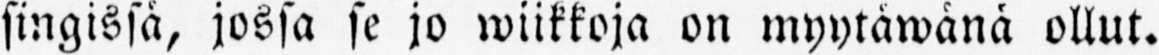singissä, jossa se jo wiikkoja on myytäwänä ollut.
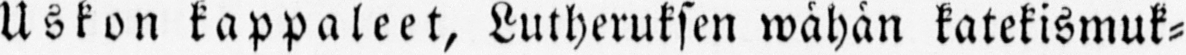Uskon kappaleet, Lutheruksen wähän katekismuk-
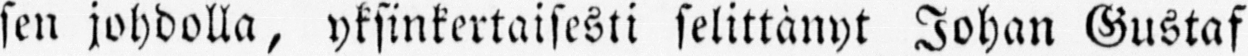sen johdolla, yksinkertaisesti selittänyt Johan Gustaf
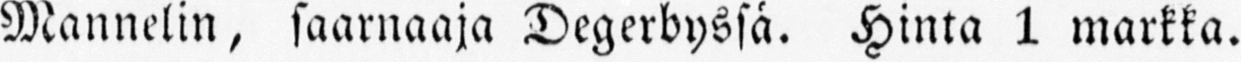Mannelin, saarnaaja Degerbyssä. Hinta 1 markka.
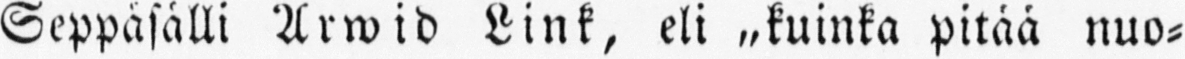Seppäsälli Arwid Link, eli „kuinka pitää nuo-
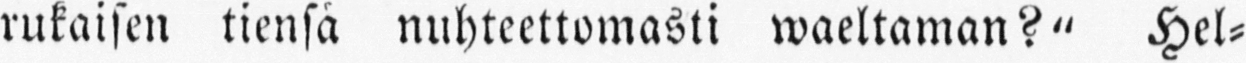rukaisen tiensä nuhteettomasti waeltaman?" Hel-
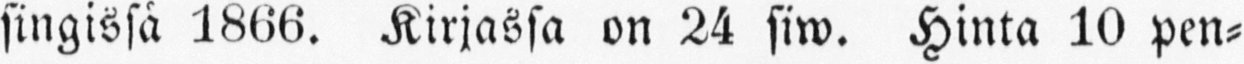singissä 1866. Kirjassa on 24 siw. Hinta 10 pen-
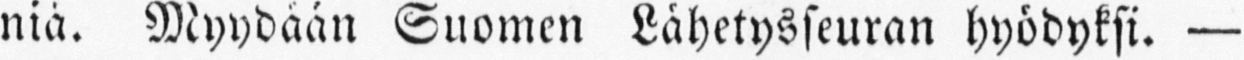niä. Myydään Suomen Lähetysseuran hyödyksi. —
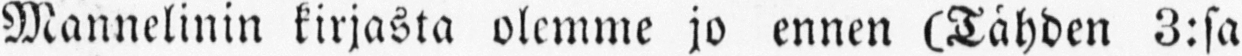Mannelinin kirjasta olemme jo ennen (Tähden 3:sa
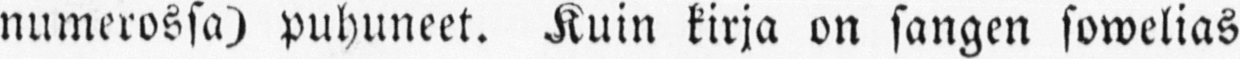numerossa) puhuneet. Kuin kirja on sangen sowelias
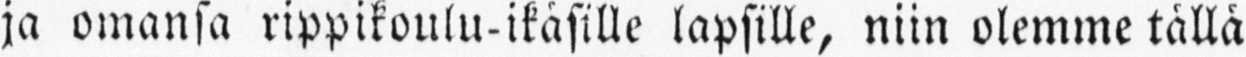ja omansa rippikoulu-ikäsille lapsille, niin olemme tällä
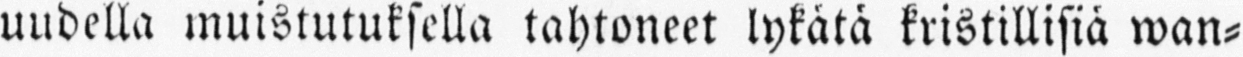uudella muistutuksella tahtoneet lykätä kristillisiä wan-
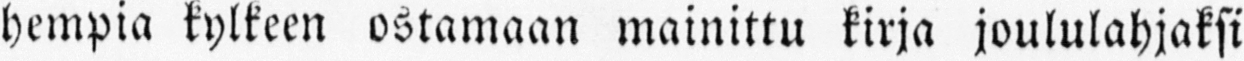hempia kylkeen ostamaan mainittu kirja joululahjaksi
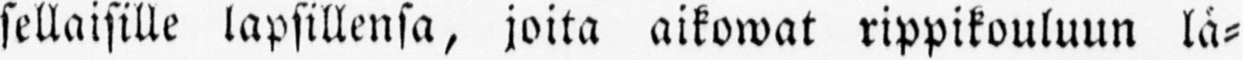sellaisille lapsillensa, joita aikowat rippikouluun lä-
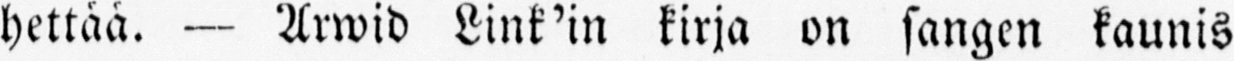hettää. — Arwid Link'in kirja on sangen kaunis
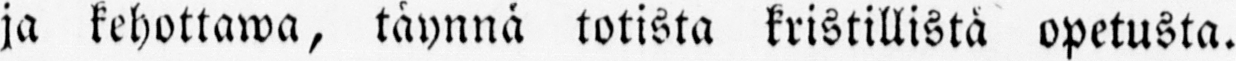ja kehottawa, täynnä totista kristillistä opetusta.
